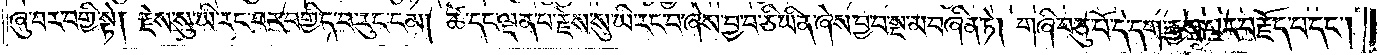ཞུ་བར་བགྱི་སྟེ། རྗེས་སུ་ཡི་རང་བར་བགྱིད་བ་རུང་ངམ། ཚེ་དང་ལྡན་པ་རྗེས་སུ་ཡི་རང་བ་ཞེས་བྱ་བ་ཅི་ཡིན་ཞེས་བྱ་བ་སྔ་མ་བཞིན་ཏེ། གཞི་བཅུ་པོ་དེ་དག་རྒྱས་པར་བརྗོད་པ་དང༌།
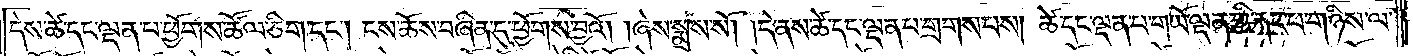དེས་ཚེ་དང་ལྡན་པ་ཕྱོགས་ཚོལ་ཅིག་དང༌། ངས་ཆོས་བཞིན་དུ་ཕྱོགས་བྱའོ། །ཞེས་སྨྲས་སོ། །དེ་ནས་ཚེ་དང་ལྡན་པ་གྲགས་པས། ཚེ་དང་ལྡན་པ་གཡོ་ལྡན་གྱི་རྐང་པ་གཉིས་ལ་
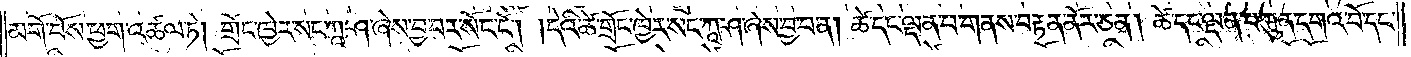མགོ་བོས་ཕྱག་འཚལ་ཏེ། གྲོང་ཁྱེར་སང་ཀཱ་ཤ་ཞེས་བྱ་བར་སོང་ངོ༌། །དེའི་ཚེ་གྲོང་ཁྱེར་སང་ཀཱ་ཤ་ཞེས་བྱ་བ་ན། ཚེ་དང་ལྡན་པ་གནས་བརྟན་ནོར་ཅན། ཚེ་དང་ལྡན་པ་ཀུན་དགའ་བོ་དང་
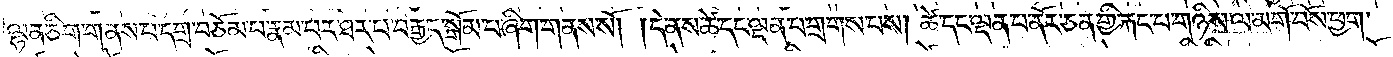ལྷན་ཅིག་གནས་པ་དགྲ་བཅོམ་པ་རྣམ་པར་ཐར་པ་བརྒྱད་སྒོམ་པ་ཞིག་གནས་སོ། །དེ་ནས་ཚེ་དང་ལྡན་པ་གྲགས་པས། ཚེ་དང་ལྡན་པ་ནོར་ཅན་གྱི་རྐང་པ་གཉིས་ལ་མགོ་བོས་ཕྱག་
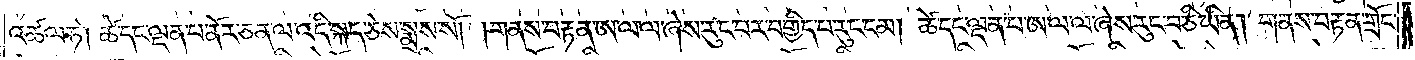འཚལ་ཏེ། ཚེ་དང་ལྡན་པ་ནོར་ཅན་ལ་འདི་སྐད་ཅེས་སྨྲས་སོ། །གནས་བརྟན་ཨ་ལ་ལ་ཞེས་རུང་བར་བགྱིད་པ་རུང་ངམ། ཚེ་དང་ལྡན་པ་ཨ་ལ་ལ་ཞེས་རུང་བ་ཅི་ཡིན། གནས་བརྟན་གྲོང་
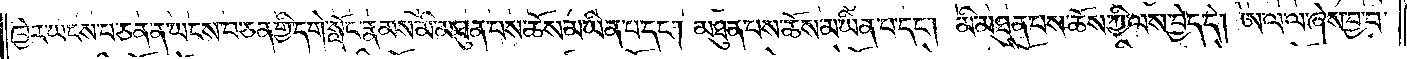ཁྱེར་ཡངས་པ་ཅན་ན་ཡངས་པ་ཅན་གྱི་དགེ་སློང་རྣམས་མི་མཐུན་བས་ཆོས་མ་ཡིན་པ་དང༌། མཐུན་པས་ཆོས་མ་ཡིན་པ་དང༌། མི་མཐུན་པས་ཆོས་ཀྱི་ལས་བྱེད་དེ། ཨ་ལ་ལ་ཞེས་བྱ་བ་
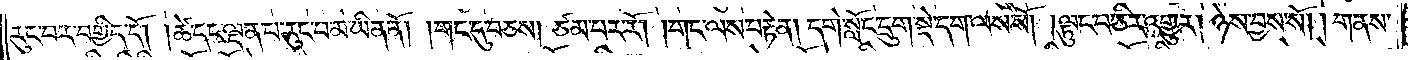རུང་བར་བགྱིད་དོ། །ཚེ་དང་ལྡན་པ་རུང་བ་མ་ཡིན་ནོ། །གང་དུ་བཅས། ཙམ་པར་རོ། །གང་ལས་བརྟེན། དགེ་སློང་དྲུག་སྡེ་དག་ལས་སོ། །ལྟུང་བ་ཅིར་འགྱུར། ཉེས་བྱས་སོ། །གནས་
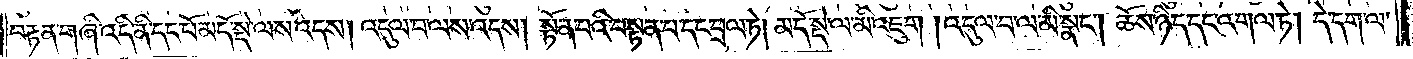བརྟན་གཞི་འདི་ནི་དང་པོ་མདོ་སྡེ་ལས་འདས། འདུལ་བ་ལས་འདས། སྟོན་པའི་བསྟན་པ་དང་བྲལ་ཏེ། མདོ་སྡེ་ལ་མི་འཇུག །འདུལ་བ་ལ་མི་སྣང༌། ཆོས་ཉིད་དང་འགལ་ཏེ། དེ་དག་ལ་
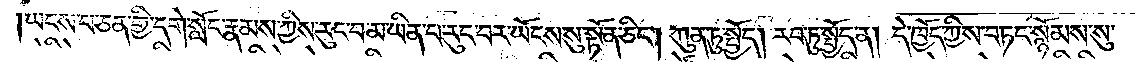།ཡངས་པ་ཅན་གྱི་དགེ་སློང་རྣམས་ཀྱིས་རུང་བ་མ་ཡིན་པ་རུང་བར་ཡོངས་སུ་སྟོན་ཅིང༌། ཀུན་ཏུ་སྤྱོད། རབ་ཏུ་སྤྱོད་ན། དེ་ཁྱོད་ཀྱིས་བཏང་སྙོམས་སུ་
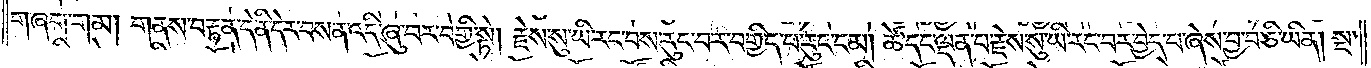གཞག་གམ། གནས་བརྟན་དེ་ནི་དེར་བས་ན་འདི་ཞུ་བར་བགྱི་སྟེ། རྗེས་སུ་ཡི་རང་བས་རུང་བར་བགྱིད་པ་རུང་ངམ། ཚེ་དང་ལྡན་པ་རྗེས་སུ་ཡི་རང་བར་བྱེད་པ་ཞེས་བྱ་བ་ཅི་ཡིན། སྔ་
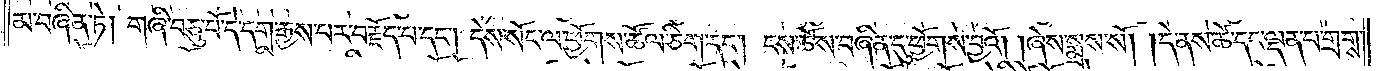མ་བཞིན་ཏེ། གཞི་བཅུ་པོ་དེ་དག་རྒྱས་པར་བརྗོད་པ་དང༌། དེས་སོང་ལ་ཕྱོགས་ཚོལ་ཅིག་དང༌། ངས་ཆོས་བཞིན་དུ་ཕྱོགས་བྱའོ། །ཞེས་སྨྲས་སོ། །དེ་ནས་ཚེ་དང་ལྡན་པ་གྲགས་
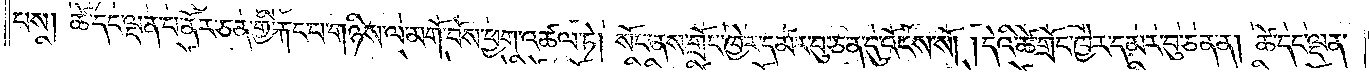པས། ཚེ་དང་ལྡན་པ་ནོར་ཅན་གྱི་རྐང་པ་གཉིས་ལ་མགོ་བོས་ཕྱག་འཚལ་ཏེ། སོང་ནས་གྲོང་ཁྱེར་དམར་བུ་ཅན་དུ་འོངས་སོ། །དེའི་ཚེ་གྲོང་ཁྱེར་དམར་བུ་ཅན་ན། ཚེ་དང་ལྡན་
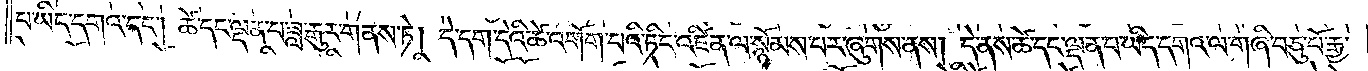པ་ཡིད་དགའ་དང༌། ཚེ་དང་ལྡན་པ་ཟླ་རྒུར་གནས་ཏེ། དེ་དག་དེའི་ཚེ་འགོག་པའི་ཏིང་འཛིན་ལ་སྙོམས་པར་ཞུགས་ནས། དེ་ནས་ཚེ་དང་ལྡན་པ་ཡིད་དགའ་ལ་གཞི་བཅུ་པོ་རྒྱ་
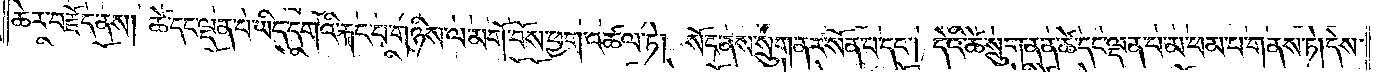ཆེར་བརྗོད་ནས། ཚེ་དང་ལྡན་པ་ཡིད་དགའི་རྐང་པ་གཉིས་ལ་མགོ་བོས་ཕྱག་འཚལ་ཏེ། སོང་ནས་སྲུག་ནར་སོན་པ་དང༌། དེའི་ཚེ་སྲུག་ན་ན་ཚེ་དང་ལྡན་པ་མ་ཕམ་པ་གནས་ཏེ། དེས་
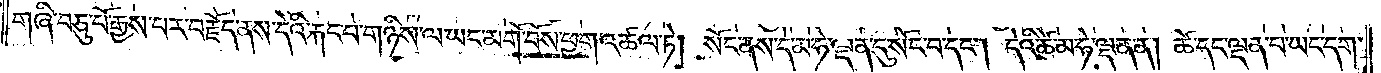གཞི་བཅུ་པོ་རྒྱས་བར་བརྗོད་ནས་དེའི་རྐང་པ་གཉིས་ལ་ཡང་མགོ་བོས་ཕྱག་འཚལ་ཏེ། སོང་ནས་དེ་མ་ཧེ་ལྡན་དུ་སོང་བ་དང༌། དེའི་ཚེ་མ་ཧེ་ལྡན་ན། ཚེ་དང་ལྡན་པ་ཡང་དག་
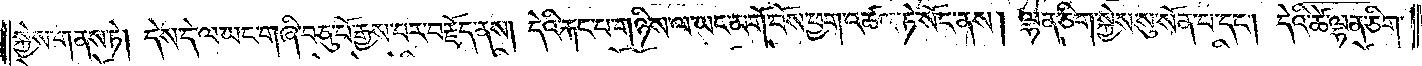སྐྱེས་གནས་ཏེ། དེས་དེ་ལ་ཡང་གཞི་བཅུ་པོ་རྒྱས་པར་བརྗོད་ནས། དེའི་རྐང་པ་གཉིས་ལ་ཡང་མགོ་བོས་ཕྱག་འཚལ་ཏེ་སོང་ནས། ལྷན་ཅིག་སྐྱེས་སུ་སོན་པ་དང༌། དེའི་ཚེ་ལྷན་ཅིག་
